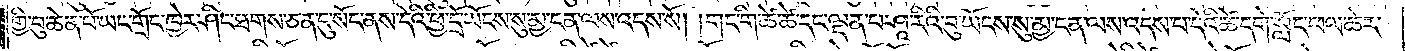གྱི་བུ་ཆེན་པོ་ཡང་གྲོང་ཁྱེར་ཤིང་ཐགས་ཅན་དུ་སོང་ནས་དེའི་ཕྱི་དྲོ་ཡོངས་སུ་མྱ་ངན་ལས་འདས་སོ། །གང་གི་ཚེ་ཚེ་དང་ལྡན་པ་ཤཱ་རིའི་བུ་ཡོངས་སུ་མྱ་ངན་ལས་འདས་པ་དེའི་ཚེ་དགེ་སློང་ཕལ་ཆེར་
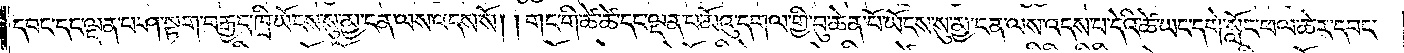དབང་དང་ལྡན་པ་ཤ་སྟག་བརྒྱད་ཁྲི་ཡོངས་སུ་མྱ་ངན་ལས་འདས་སོ། །གང་གི་ཚེ་ཚེ་དང་ལྡན་པ་མོའུ་དགལ་གྱི་བུ་ཆེན་པོ་ཡོངས་སུ་མྱ་ངན་ལས་འདས་པ་དེའི་ཚེ་ཡང་དགེ་སློང་ཕལ་ཆེར་དབང་
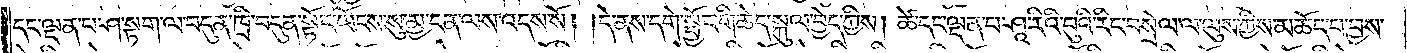དང་ལྡན་པ་ཤ་སྟག་ལ་བདུན་ཁྲི་བདུན་སྟོང་ཡོངས་སུ་མྱ་ངན་ལས་འདས་སོ། །དེ་ནས་དགེ་སྦྱོང་གི་ཆེད་སྐུལ་བྱེད་ཀྱིས། ཚེ་དང་ལྡན་པ་ཤཱ་རིའི་བུའི་རིང་བསྲེལ་ལ་ལུས་ཀྱིས་མཆོད་པ་བྱས་
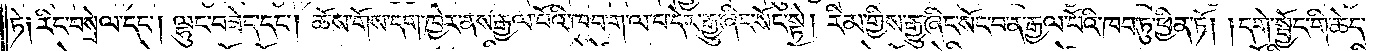ཏེ། རིང་བསྲེལ་དང༌། ལྷུང་བཟེད་དང༌། ཆོས་གོས་དག་ཁྱེར་ནས་རྒྱལ་པོའི་ཁབ་ག་ལ་བ་དེར་རྒྱུ་ཞིང་སོང་སྟེ། རིམ་གྱིས་རྒྱུ་ཞིང་སོང་བ་ན་རྒྱལ་པོའི་ཁབ་ཏུ་ཕྱིན་ཏོ། དགེ་སྦྱོང་གི་ཆེད་
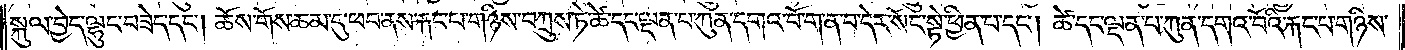སྐུལ་བྱེད་ལྷུང་བཟེད་དང༌། ཆོས་གོས་ཆམ་དུ་ཕབ་ནས་རྐང་པ་གཉིས་བཀྲུས་ཏེ་ཚེ་དང་ལྡན་པ་ཀུན་དགའ་བོ་ག་ན་བ་དེར་སོང་སྟེ་ཕྱིན་པ་དང༌། ཚེ་དང་ལྡན་པ་ཀུན་དགའ་བོའི་རྐང་པ་གཉིས་
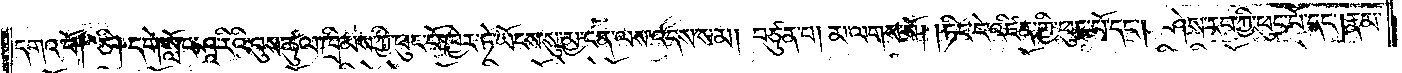དགའ་བོ། ཅི། དགེ་སློང་ཤཱ་རིའི་བུས་ཚུལ་ཁྲིམས་ཀྱི་ཕུང་པོ་ཁྱེར་ཏེ་ཡོངས་སུ་མྱ་ངན་ལས་འདས་སམ། བཙུན་པ། མ་ལགས་སོ། །ཏིང་ངེ་འཛིན་གྱི་ཕུང་པོ་དང༌། ཤེས་རབ་ཀྱི་ཕུང་པོ་དང༌། རྣམ་
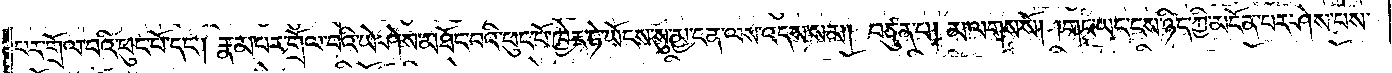པར་གྲོལ་བའི་ཕུང་པོ་དང༌། རྣམ་པར་གྲོལ་བའི་ཡེ་ཤེས་མཐོང་བའི་ཕུང་པོ་ཁྱེར་ཏེ་ཡོངས་སུ་མྱ་ངན་ལས་འདས་སམ། བཙུན་པ། མ་ལགས་སོ། །གང་ཡང་ངས་ཉིད་ཀྱི་མངོན་པར་ཤེས་པས་
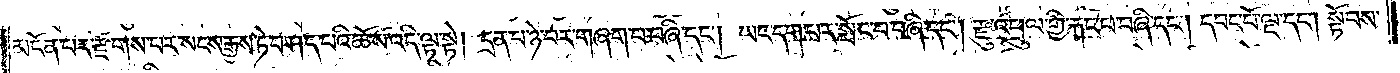མངོན་པར་རྫོགས་པར་སངས་རྒྱས་ཏེ་བཤད་པའི་ཆོས་འདི་ལྟ་སྟེ། དྲན་པ་ཉེ་བར་གཞག་པ་བཞི་དང༌། ཡང་དག་པར་སྤོང་བ་བཞི་དང༌། རྫུ་འཕྲུལ་གྱི་རྐང་པ་བཞི་དང༌། དབང་པོ་ལྔ་དང༌། སྟོབས་
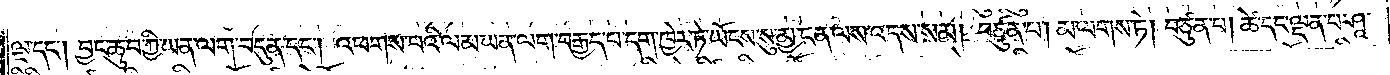ལྔ་དང༌། བྱང་ཆུབ་ཀྱི་ཡན་ལག་བདུན་དང༌། འཕགས་པའི་ལམ་ཡན་ལག་བརྒྱད་པ་དག་ཁྱེར་ཏེ་ཡོངས་སུ་མྱ་ངན་ལས་འདས་སམ། བཙུན་པ། མ་ལགས་ཏེ། བཙུན་པ། ཚེ་དང་ལྡན་པ་ཤཱ་
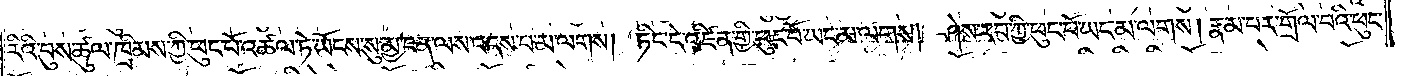རིའི་བུས་ཚུལ་ཁྲིམས་ཀྱི་ཕུང་པོ་འཚལ་ཏེ་ཡོངས་སུ་མྱ་ངན་ལས་འདས་པ་མ་ལགས། ཏིང་ངེ་འཛིན་གྱི་ཕུང་པོ་ཡང་མ་ལགས། ཤེས་རབ་ཀྱི་ཕུང་པོ་ཡང་མ་ལགས། རྣམ་པར་གྲོལ་བའི་ཕུང་
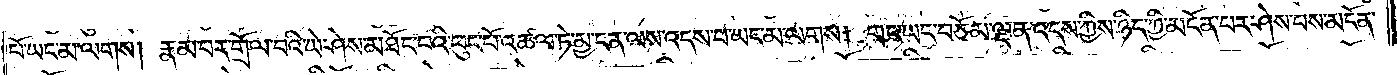པོ་ཡང་མ་ལགས། རྣམ་པར་གྲོལ་བའི་ཡེ་ཤེས་མཐོང་བའི་ཕུང་པོ་འཚལ་ཏེ་མྱ་ངན་ལས་འདས་པ་ཡང་མ་ལགས། གང་ཡང་བཅོམ་ལྡན་འདས་ཀྱིས་ཉིད་ཀྱི་མངོན་པར་ཤེས་པས་མངོན་
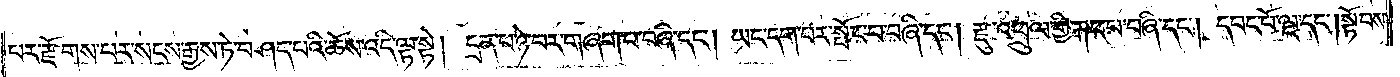པར་རྫོགས་པར་སངས་རྒྱས་ཏེ་བཤད་པའི་ཆོས་འདི་ལྟ་སྟེ། དྲན་པ་ཉེ་བར་གཞག་པ་བཞི་དང༌། ཡང་དག་པར་སྤོང་བ་བཞི་དང༌། རྫུ་འཕྲུལ་གྱི་རྐང་པ་བཞི་དང༌། དབང་པོ་ལྔ་དང༌། སྟོབས་
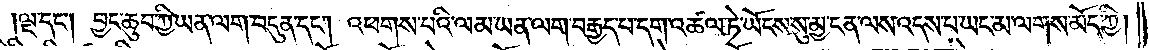ལྔ་དང༌། བྱང་ཆུབ་ཀྱི་ཡན་ལག་བདུན་དང༌། འཕགས་པའི་ལམ་ཡན་ལག་བརྒྱད་པ་དག་འཚལ་ཏེ་ཡོངས་སུ་མྱ་ངན་ལས་འདས་པ་ཡང་མ་ལགས་མོད་ཀྱི།
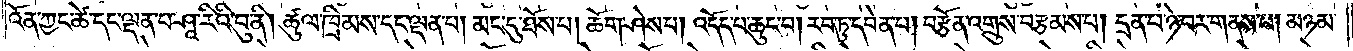འོན་ཀྱང་ཚེ་དང་ལྡན་པ་ཤཱ་རིའི་བུ་ནི། ཚུལ་ཁྲིམས་དང་ལྡན་པ། མང་དུ་ཐོས་པ། ཆོག་ཤེས་པ། འདོད་པ་ཆུང་བ། རབ་ཏུ་དབེན་པ། བརྩོན་འགྲུས་བརྩམས་པ། དྲན་པ་ཉེ་བར་གནས་པ། མཉམ་
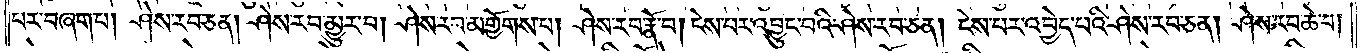པར་བཞག་པ། ཤེས་རབ་ཅན། ཤེས་རབ་མྱུར་བ། ཤེས་རབ་མགྱོགས་པ། ཤེས་རབ་རྣོ་བ། ངེས་པར་འབྱུང་བའི་ཤེས་རབ་ཅན། ངེས་པར་འབྱེད་པའི་ཤེས་རབ་ཅན། ཤེས་རབ་ཆེ་བ།
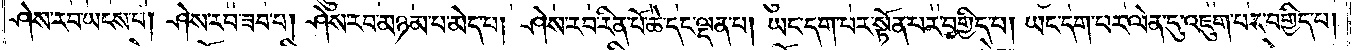ཤེས་རབ་ཡངས་པ། ཤེས་རབ་ཟབ་པ། ཤེས་རབ་མཉམ་པ་མེད་པ། ཤེས་རབ་རིན་པོ་ཆེ་དང་ལྡན་པ། ཡང་དག་པར་སྟོན་པར་བགྱིད་པ། ཡང་དག་པར་ལེན་དུ་འཇུག་པར་བགྱིད་པ།
